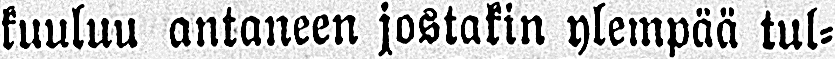kuuluu antaneen jostakin ylempää tul-
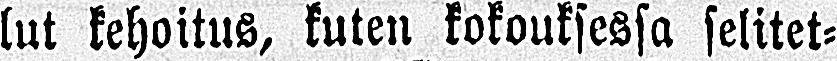lut kehoitus, kuten kokouksessa selitet-
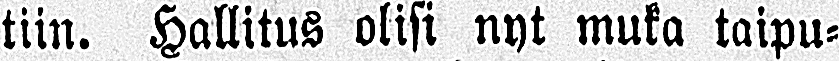tiin. Hallitus olisi nyt muka taipu-
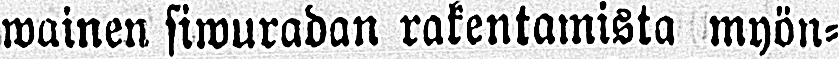wainen siwuradan rakentamista myön-
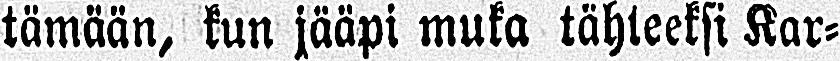tämään, kun jääpi muka tähteeksi Kar-
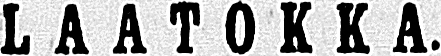LAATOKKA.
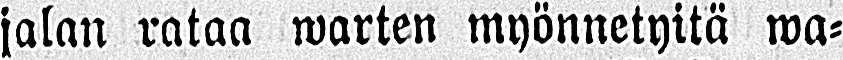jalan rataa warten myönnetyltä wa-
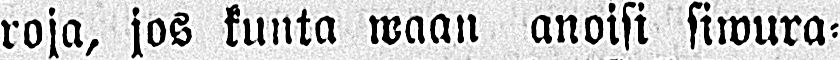roja, jos kunta waan anoisi siwura-
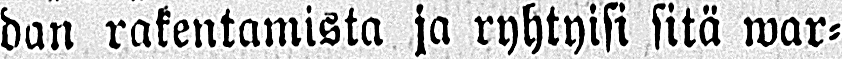dan rakentamista ja ryhtyisi sitä war-
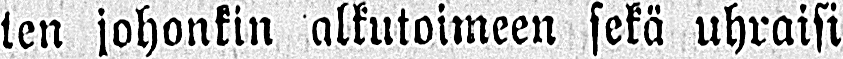ten johonkin alkutoimeen sekä uhraisi
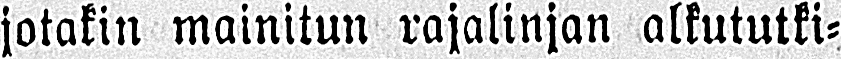jotakin mainitun rajalinjan alkututki-
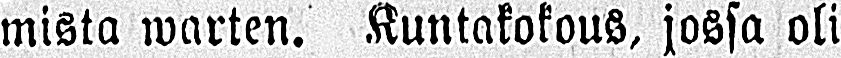mista warten. Kuntakokous, jossa oli
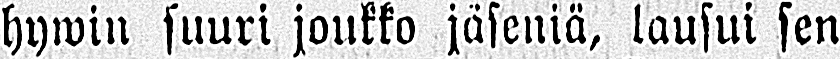hywin suuri joukko jäseniä, lausui sen
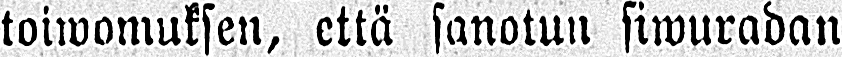toiwomuksen, että sanotun siwuradan
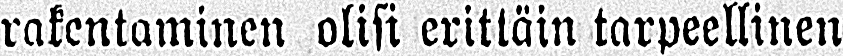rakentaminen olisi erittäin tarpeellinen
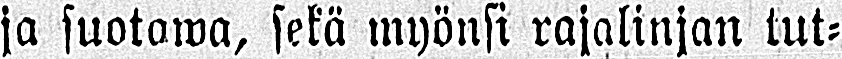ja suotawa, sekä myönsi rajalinjan tut-
